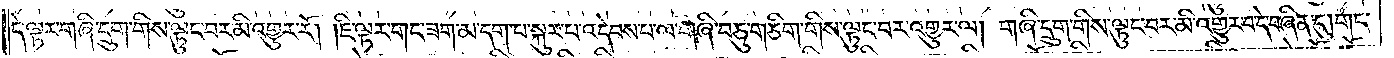དེ་ལྟར་གཞི་དྲུག་གིས་ལྟུང་བར་མི་འགྱུར་རོ། །ཇི་ལྟར་གང་ཟག་མ་དག་པ་སྐུར་པ་འདེབས་པ་ལ་གཞི་བཅུ་གཅིག་གིས་ལྟུང་བར་འགྱུར་ལ། གཞི་དྲུག་གིས་ལྟུང་བར་མི་འགྱུར་བ་དེ་བཞིན་དུ། གང་
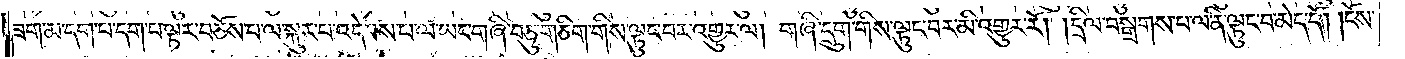ཟག་མ་དག་པ་དག་པ་ལྟར་བཅོས་པ་ལ་སྐུར་པ་འདེབས་པ་ལ་ཡང་གཞི་བཅུ་གཅིག་གིས་ལྟུང་བར་འགྱུར་ལ། གཞི་དྲུག་གིས་ལྟུང་བར་མི་འགྱུར་རོ། །དྲིལ་བསྒྲགས་པ་ལ་ནི་ལྟུང་བ་མེད་དོ། །ངོས་
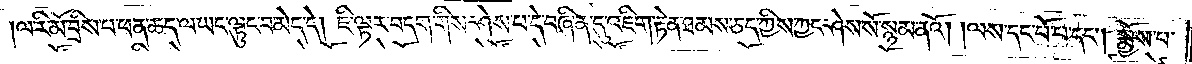།ལ་རི་མོ་བྲིས་པ་ཕན་ཆད་ལ་ཡང་ལྟུང་བ་མེད་དེ། ཇི་ལྟར་བདག་གིས་ཤེས་པ་དེ་བཞིན་དུ་འཇིག་རྟེན་ཐམས་ཅད་ཀྱིས་ཀྱང་ཤེས་སོ་སྙམ་ནའོ། །ལས་དང་པོ་པ་དང༌། སྨྱོས་པ་
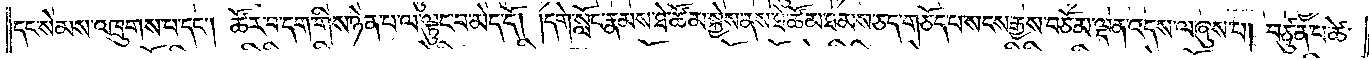དང་སེམས་འཁྲུགས་པ་དང༌། ཚོར་བ་དག་གིས་ཉེན་པ་ལ་ལྟུང་བ་མེད་དོ། །དགེ་སློང་རྣམས་ཐེ་ཚོམ་སྐྱེས་ནས་ཐེ་ཚོམ་ཐམས་ཅད་གཅོད་པ་སངས་རྒྱས་བཅོམ་ལྡན་འདས་ལ་ཞུས་པ། བཙུན་པ་ཚེ་
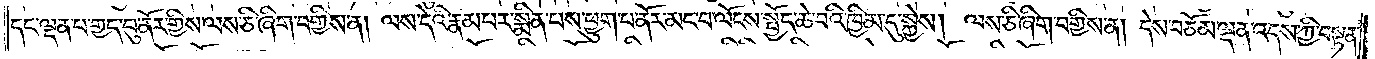དང་ལྡན་པ་གྱད་བུ་ནོར་གྱིས་ལས་ཅི་ཞིག་བགྱིས་ན། ལས་དེའི་རྣམ་པར་སྨིན་པས་ཕྱུག་པ་ནོར་མང་བ་ལོངས་སྤྱོད་ཆེ་བའི་ཁྱིམ་དུ་སྐྱེས། ལས་ཅི་ཞིག་བགྱིས་ན། དེས་བཅོམ་ལྡན་འདས་ཀྱི་བསྟན་
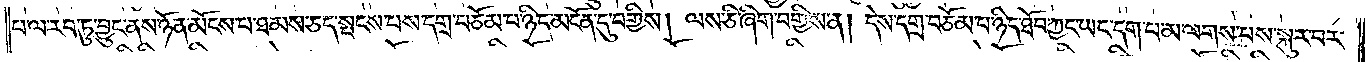པ་ལ་རབ་ཏུ་བྱུང་ནས་ཉོན་མོངས་པ་ཐམས་ཅད་སྤངས་པས་དགྲ་བཅོམ་པ་ཉིད་མངོན་དུ་བགྱིས། ལས་ཅི་ཞིག་བགྱིས་ན། དེས་དགྲ་བཅོམ་པ་ཉིད་ཐོབ་ཀྱང་ཡང་དག་པ་མ་ལགས་པས་སྐུར་བར་
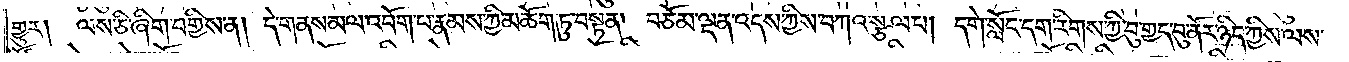གྱུར། ལས་ཅི་ཞིག་བགྱིས་ན། དེ་གནས་མལ་འབོག་པ་རྣམས་ཀྱི་མཆོག་ཏུ་བསྟན། བཅོམ་ལྡན་འདས་ཀྱིས་བཀའ་སྩལ་པ། དགེ་སློང་དག་རིགས་ཀྱི་བུ་གྱད་བུ་ནོར་ཉིད་ཀྱིས་ལས་
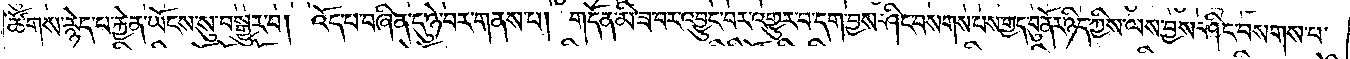ཚོགས་རྙེད་པ་རྐྱེན་ཡོངས་སུ་བསྒྱུར་བ། འོད་པ་བཞིན་དུ་ཉེ་བར་གནས་པ། གདོན་མི་ཟ་བར་འབྱུང་བར་འགྱུར་བ་དག་བྱས་ཤིང་བསགས་པས་གྱད་བུ་ནོར་ཉིད་ཀྱིས་ལས་བྱས་ཤིང་བསགས་པ་
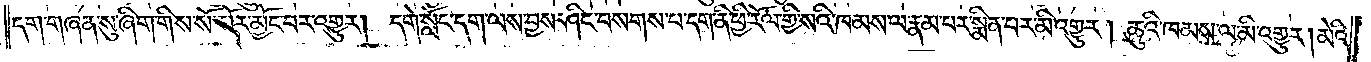དག་གཞན་སུ་ཞིག་གིས་སོ་སོར་མྱོང་བར་འགྱུར། དགེ་སློང་དག་ལས་བྱས་ཤིང་བསགས་པ་དག་ནི་ཕྱི་རོལ་གྱི་སའི་ཁམས་ལ་རྣམ་པར་སྨིན་པར་མི་འགྱུར། ཆུའི་ཁམས་ལ་མི་འགྱུར། མེའི་
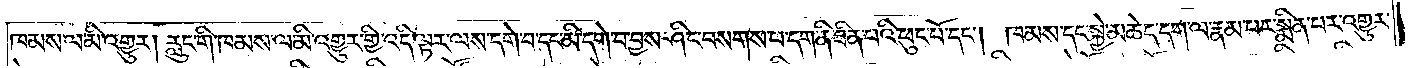ཁམས་ལ་མི་འགྱུར། རླུང་གི་ཁམས་ལ་མི་འགྱུར་གྱི་འདི་ལྟར་ལས་དགེ་བ་དང་མི་དགེ་བ་བྱས་ཤིང་བསགས་པ་དག་ནི་ཟིན་པའི་ཕུང་པོ་དང༌། ཁམས་དང་སྐྱེ་མཆེད་དག་ལ་རྣམ་པར་སྨིན་པར་འགྱུར་
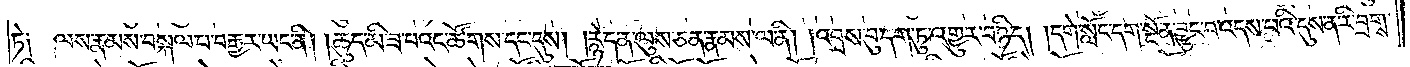ཏེ༑ ལས་རྣམས་བསྐལ་བ་བརྒྱར་ཡང་ནི། །ཆུད་མི་ཟ་པའང་ཚོགས་དང་དུས། །རྙེད་ན་ལུས་ཅན་རྣམས་ལ་ནི། །འབྲས་བུ་དག་ཏུ་འགྱུར་བ་ཉིད། །དགེ་སློང་དག་སྔོན་བྱུང་བ་འདས་པའི་དུས་ན་རི་བྲགས་
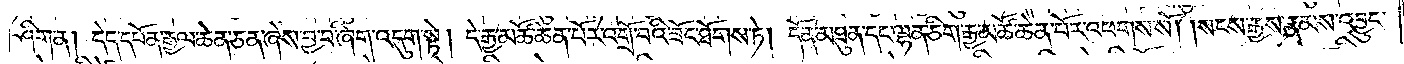ཤིག་ན། དེད་དཔོན་རྒྱལ་ཆེན་ཅན་ཞེས་བྱ་བ་ཞིག་འདུག་སྟེ། དེ་རྒྱ་མཚོ་ཆེན་པོར་འགྲོ་བའི་ཟོང་ཐོགས་ཏེ། དོན་མཐུན་དང་ལྷན་ཅིག་རྒྱ་མཚོ་ཆེན་པོར་འཕགས་སོ། །སངས་རྒྱས་རྣམས་འབྱུང་
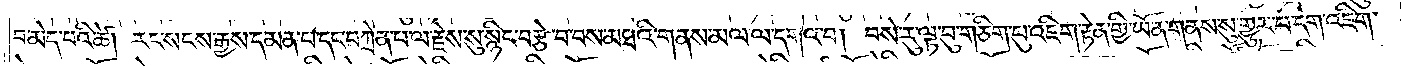བ་མེད་པའི་ཚེ། རང་སངས་རྒྱས་དམན་པ་དང་བཀྲེན་པ་ལ་རྗེས་སུ་སྙིང་བརྩེ་བ་བས་མཐའི་གནས་མལ་ལ་དགའ་བ། བསེ་རུ་ལྟ་བུ་གཅིག་པུ་འཇིག་རྟེན་གྱི་ཡོན་གནས་སུ་གྱུར་པ་དག་འཇིག་
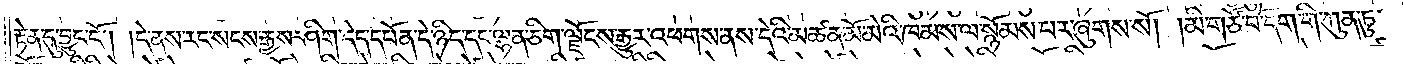རྟེན་དུ་བྱུང་ངོ༌། །དེ་ནས་རང་སངས་རྒྱས་ཤིག་དེད་དཔོན་དེ་ཉིད་དང་ལྷན་ཅིག་ལྗོངས་རྒྱུར་འཕགས་ནས་དེའི་མཚན་མོ་མེའི་ཁམས་ལ་སྙོམས་པར་ཞུགས་སོ། །མི་གཙོ་བོ་དག་གི་ཀུན་ཏུ་
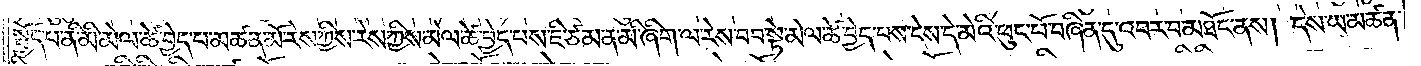སྤྱོད་པ་ནི་མི་མེལ་ཚེ་བྱེད་པ་མཚན་མོ་རེས་ཀྱིས་རེས་ཀྱིས་མེལ་ཚེ་བྱེད་པས་ཇི་ཙམ་ན་མི་ཞིག་ལ་རེས་བབ་སྟེ་མེལ་ཚེ་བྱེད་པས་དེས་དེ་མེའི་ཕུང་པོ་བཞིན་དུ་འབར་བ་མཐོང་ནས། དེས་ཡ་མཚན་
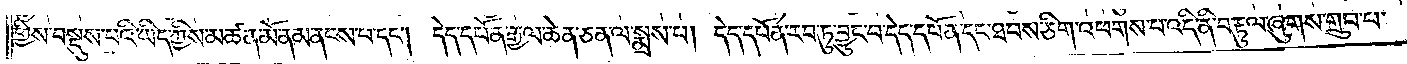གྱིས་བསྡུས་པའི་ཡིད་ཀྱིས་མཚན་མོ་ནམ་ནངས་པ་དང༌། དེད་དཔོན་རྒྱལ་ཆེན་ཅན་ལ་སྨྲས་པ། དད་དཔོན་རབ་ཏུ་བྱུང་བ་དེད་དཔོན་དང་ཐབས་ཅིག་འཕགས་པ་འདི་ནི་བརྟུལ་ཞུགས་གྲུབ་པ་
